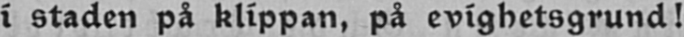i staden på klippan, på evighetsgrund!
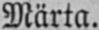Märta.
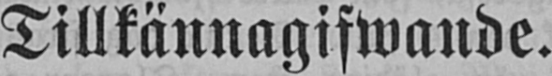Tillkännagifwande.
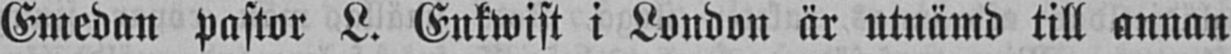Emedan pastor L. Enkwist i London är utnämd till annan
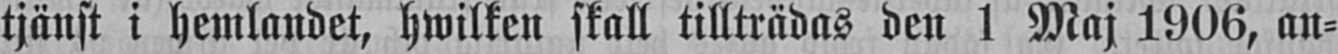tjänst i hemlandet, hwilken skall tillträdas den 1 Maj 1906, an-
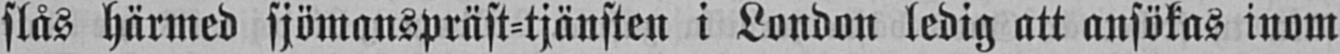slås härmed sjömanspräst-tjänsten i London ledig att ansökas inom
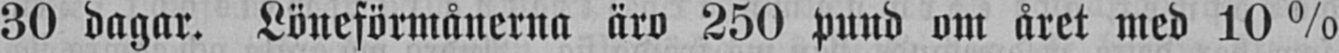30 dagar. Löneförmånerna äro 250 pund om året med 10 %
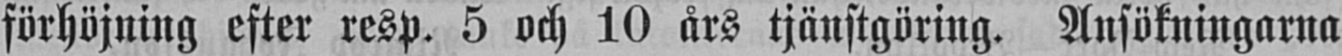förhöjning efter resp. 5 och 10 års tjänstgöring. Ansökningarna
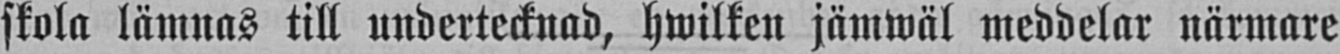skola lämnas till undertecknad, hwilken jämwäl meddelar närmare
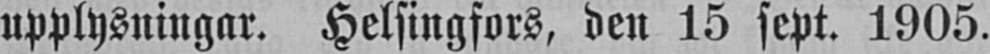upplysningar. Helsingfors, den 15 sept. 1905.
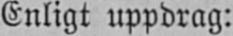Enligt uppdrag:
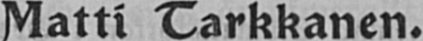Matti Tarkkanen.
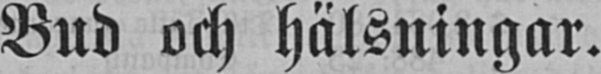Bud och hälsningar.
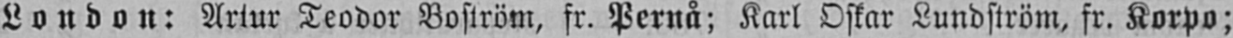London: Artur Teodor Boström, fr. Pernå: Karl Oskar Lundström, fr. Korpo;
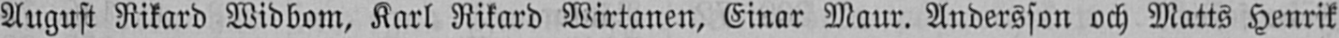August Rikard Widbom, Karl Rikard Wirtanen, Einar Maur. Andersson och Matts Henrik
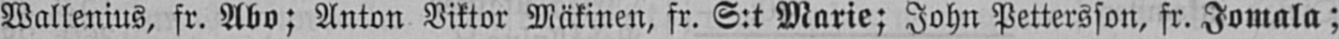Wallenius, fr. Abo; Anton Viktor Mäkinen, fr. S:t Marie; John Pettersson, fr. Jomala;
